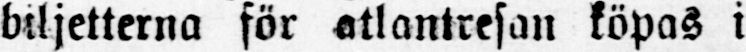biljetterna för atlantresan köpas i
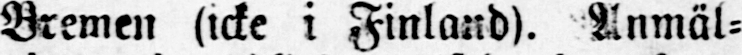Bremen (icke i Finland). Anmäl-
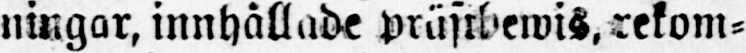ningar, innhållade prästbewis, rekom-
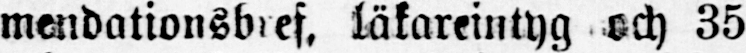mendationsbref, läkareintyg och 35
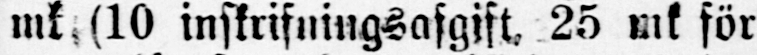mk (10 inskrifningsafgift, 25 mk för
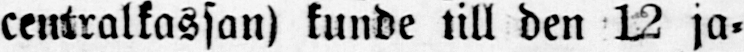centralkassan) kunde till den 12 ja-
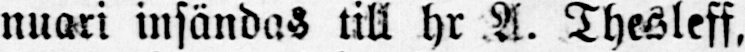nuari insändas till hr A. Thesleff,
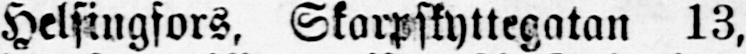Helsingfors, Skarpskyttegatan 13,
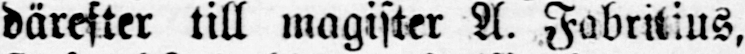därefter till magister A. Fabritius,
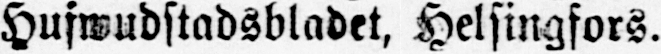Hufwudstadsbladet, Helsingfors.
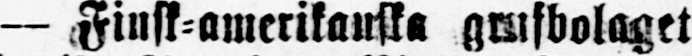— Finsk-amerikanska grufbolaget
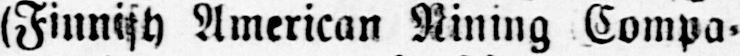(Finnish American Nining Compa-
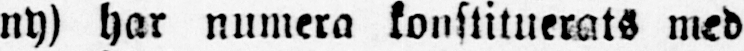ny) har numera konstituerats med
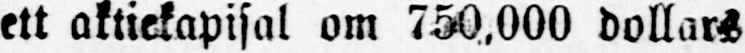ett aktiekapital om 750,000 dollars
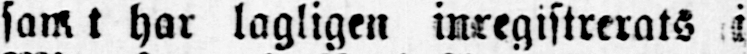samt har lagligen inregistrerats i
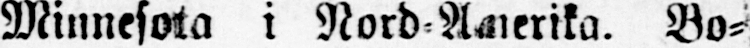Minnesota i Nord-Amerika. Bo-
